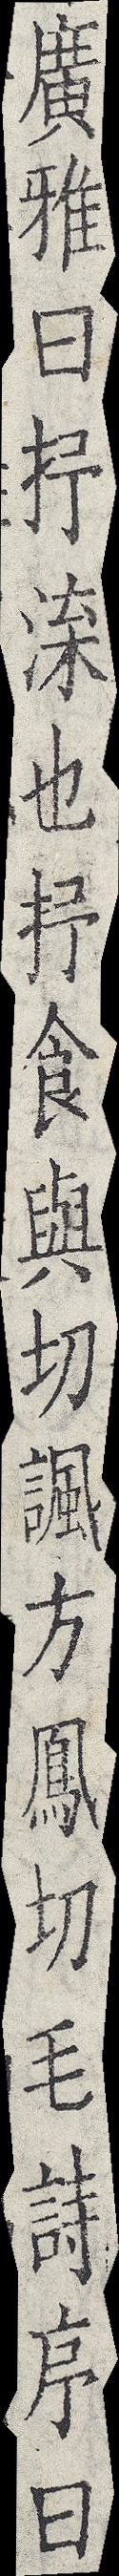廣雅曰抒㳿也抒食與切諷方鳳切毛詩序曰
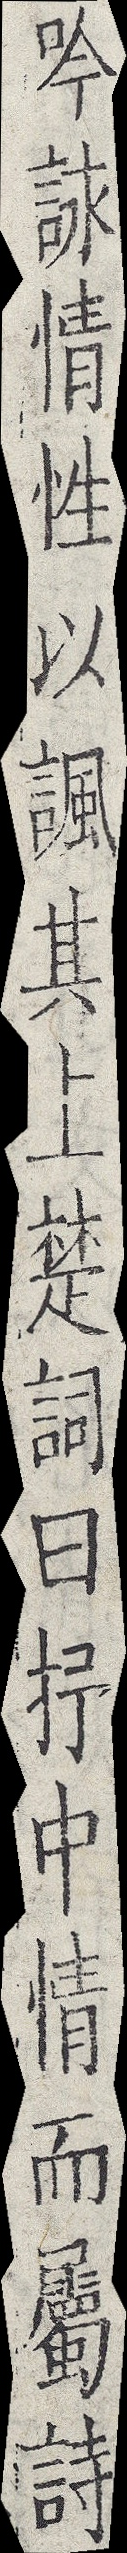吟詠情性以諷其上楚詞曰抒中情而屬詩
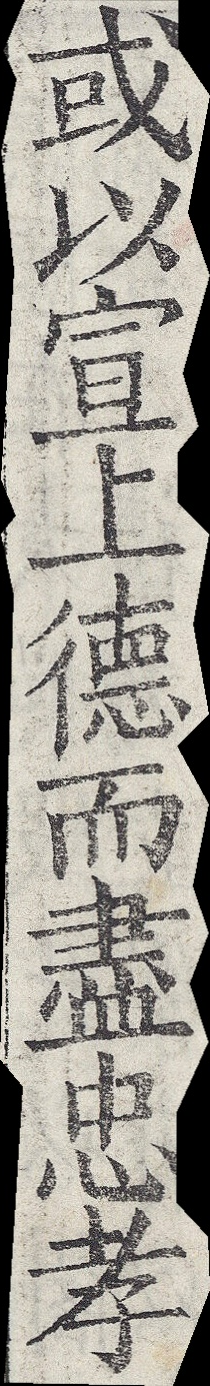或以宣上德而盡忠孝
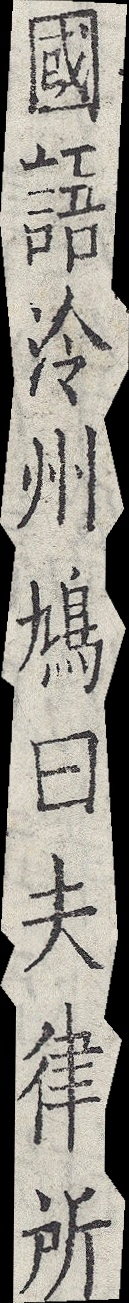國語泠州鳩曰夫律所
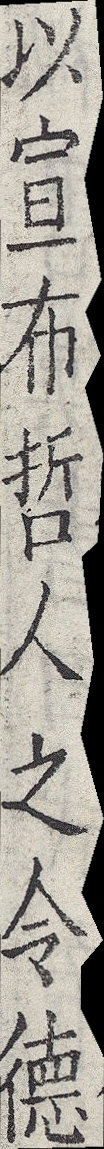以宣布哲人之令德
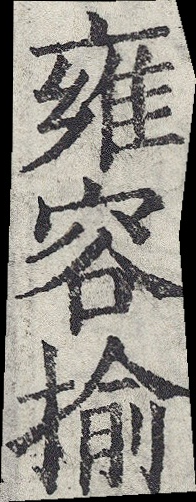雍容揄
